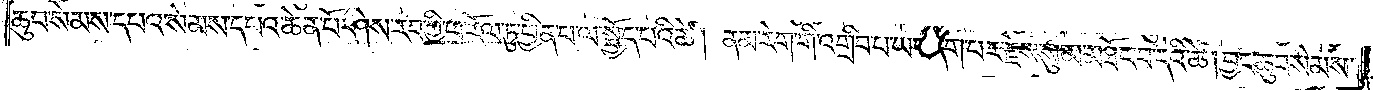ཆུབ་སེམས་དཔའ་སེམས་དཔའ་ཆེན་པོ་ཤེས་རབ་ཀྱི་ཕ་རོལ་ཏུ་ཕྱིན་པ་ལ་སྤྱོད་པའི་ཚེ། ནམ་རེག་གི་འགྲིབ་པ་ཡང་དག་པར་རྗེས་སུ་མ་མཐོང་བ་དེའི་ཚེ། བྱང་ཆུབ་སེམས་
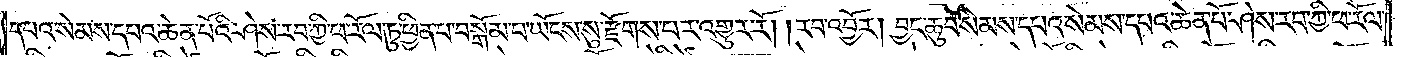དཔའ་སེམས་དཔའ་ཆེན་པོའི་ཤེས་རབ་ཀྱི་ཕ་རོལ་ཏུ་ཕྱིན་པ་བསྒོམ་པ་ཡོངས་སུ་རྫོགས་པར་འགྱུར་རོ། །རབ་འབྱོར། བྱང་ཆུབ་སེམས་དཔའ་སེམས་དཔའ་ཆེན་པོ་ཤེས་རབ་ཀྱི་ཕ་རོལ་
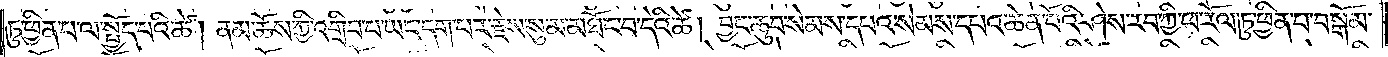ཏུ་ཕྱིན་པ་ལ་སྤྱོད་པའི་ཚེ། ནམ་ཆོས་ཀྱི་འགྲིབ་པ་ཡང་དག་པར་རྗེས་སུ་མ་མཐོང་བ་དེའི་ཚེ། བྱང་ཆུབ་སེམས་དཔའ་སེམས་དཔའ་ཆེན་པོའི་ཤེས་རབ་ཀྱི་ཕ་རོལ་ཏུ་ཕྱིན་པ་བསྒོམ་
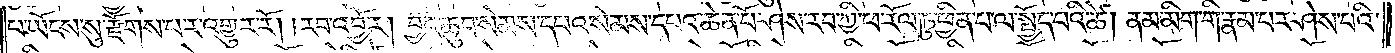པ་ཡོངས་སུ་རྫོགས་པར་འགྱུར་རོ། །རབ་འབྱོར། བྱང་ཆུབ་སེམས་དཔའ་སེམས་དཔའ་ཆེན་པོ་ཤེས་རབ་ཀྱི་ཕ་རོལ་ཏུ་ཕྱིན་པ་ལ་སྤྱོད་པའི་ཚེ། ནམ་མིག་གི་རྣམ་པར་ཤེས་པའི་
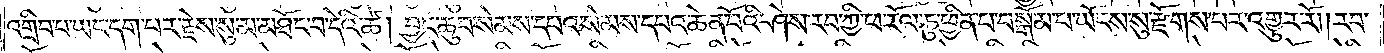འགྲིབ་པ་ཡང་དག་པར་རྗེས་སུ་མ་མཐོང་བ་དེའི་ཚེ། བྱང་ཆུབ་སེམས་དཔའ་སེམས་དཔའ་ཆེན་པོའི་ཤེས་རབ་ཀྱི་ཕ་རོལ་ཏུ་ཕྱིན་པ་བསྒོམ་པ་ཡོངས་སུ་རྫོགས་པར་འགྱུར་རོ། །རབ་
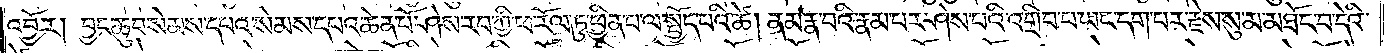འབྱོར། བྱང་ཆུབ་སེམས་དཔའ་སེམས་དཔའ་ཆེན་པོ་ཤེས་རབ་ཀྱི་ཕ་རོལ་ཏུ་ཕྱིན་པ་ལ་སྤྱོད་པའི་ཚེ། ནམ་རྣ་བའི་རྣམ་པར་ཤེས་པའི་འགྲིབ་པ་ཡང་དག་པར་རྗེས་སུ་མ་མཐོང་བ་དེའི་
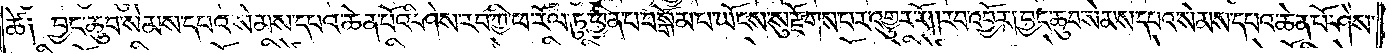ཚེ། བྱང་ཆུབ་སེམས་དཔའ་སེམས་དཔའ་ཆེན་པོའི་ཤེས་རབ་ཀྱི་ཕ་རོལ་ཏུ་ཕྱིན་པ་བསྒོམ་པ་ཡོངས་སུ་རྫོགས་པར་འགྱུར་རོ། །རབ་འབྱོར། བྱང་ཆུབ་སེམས་དཔའ་སེམས་དཔའ་ཆེན་པོ་ཤེས་
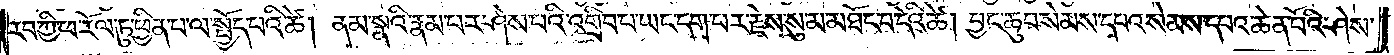རབ་ཀྱི་ཕ་རོལ་ཏུ་ཕྱིན་པ་ལ་སྤྱོད་པའི་ཚེ། ནམ་སྣའི་རྣམ་པར་ཤེས་པའི་འགྲིབ་པ་ཡང་དག་པར་རྗེས་སུ་མ་མཐོང་བ་དེའི་ཚེ། བྱང་ཆུབ་སེམས་དཔའ་སེམས་དཔའ་ཆེན་པོའི་ཤེས་
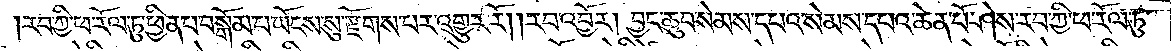རབ་ཀྱི་ཕ་རོལ་ཏུ་ཕྱིན་པ་བསྒོམ་པ་ཡོངས་སུ་རྫོགས་པར་འགྱུར་རོ། །རབ་འབྱོར། བྱང་ཆུབ་སེམས་དཔའ་སེམས་དཔའ་ཆེན་པོ་ཤེས་རབ་ཀྱི་ཕ་རོལ་ཏུ་
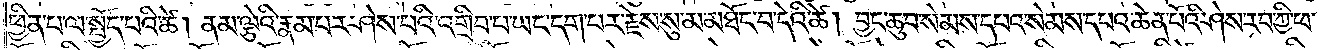ཕྱིན་པ་ལ་སྤྱོད་པའི་ཚེ། ནམ་ལྕེའི་རྣམ་པར་ཤེས་པའི་འགྲིབ་པ་ཡང་དག་པར་རྗེས་སུ་མ་མཐོང་བ་དེའི་ཚེ། བྱང་ཆུབ་སེམས་དཔའ་སེམས་དཔའ་ཆེན་པོའི་ཤེས་རབ་ཀྱི་ཕ་
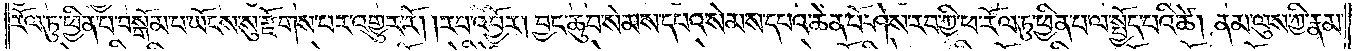རོལ་ཏུ་ཕྱིན་པ་བསྒོམ་པ་ཡོངས་སུ་རྫོགས་པར་འགྱུར་རོ། །རབ་འབྱོར། བྱང་ཆུབ་སེམས་དཔའ་སེམས་དཔའ་ཆེན་པོ་ཤེས་རབ་ཀྱི་ཕ་རོལ་ཏུ་ཕྱིན་པ་ལ་སྤྱོད་པའི་ཚེ། ནམ་ལུས་ཀྱི་རྣམ་
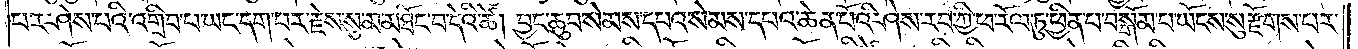པར་ཤེས་པའི་འགྲིབ་པ་ཡང་དག་པར་རྗེས་སུ་མ་མཐོང་བ་དེའི་ཚེ། བྱང་ཆུབ་སེམས་དཔའ་སེམས་དཔའ་ཆེན་པོའི་ཤེས་རབ་ཀྱི་ཕ་རོལ་ཏུ་ཕྱིན་པ་བསྒོམ་པ་ཡོངས་སུ་རྫོགས་པར་
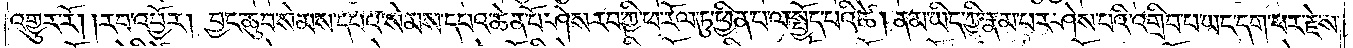འགྱུར་རོ། །རབ་འབྱོར། བྱང་ཆུབ་སེམས་དཔའ་སེམས་དཔའ་ཆེན་པོ་ཤེས་རབ་ཀྱི་ཕ་རོལ་ཏུ་ཕྱིན་པ་ལ་སྤྱོད་པའི་ཚེ། ནམ་ཡིད་ཀྱི་རྣམ་པར་ཤེས་པའི་འགྲིབ་པ་ཡང་དག་པར་རྗེས་
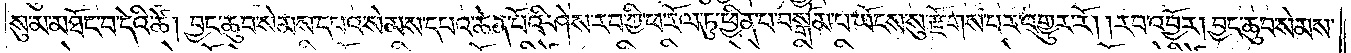སུ་མ་མཐོང་བ་དེའི་ཚེ། བྱང་ཆུབ་སེམས་དཔའ་སེམས་དཔའ་ཆེན་པོའི་ཤེས་རབ་ཀྱི་ཕ་རོལ་ཏུ་ཕྱིན་པ་བསྒོམ་པ་ཡོངས་སུ་རྫོགས་པར་འགྱུར་རོ། །རབ་འབྱོར། བྱང་ཆུབ་སེམས་
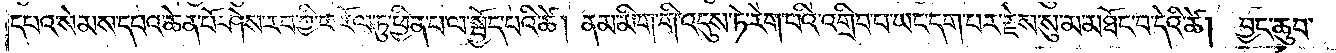དཔའ་སེམས་དཔའ་ཆེན་པོ་ཤེས་རབ་ཀྱི་ཕ་རོལ་ཏུ་ཕྱིན་པ་ལ་སྤྱོད་པའི་ཚེ། ནམ་མིག་གི་འདུས་ཏེ་རེག་པའི་འགྲིབ་པ་ཡང་དག་པར་རྗེས་སུ་མ་མཐོང་བ་དེའི་ཚེ། བྱང་ཆུབ་
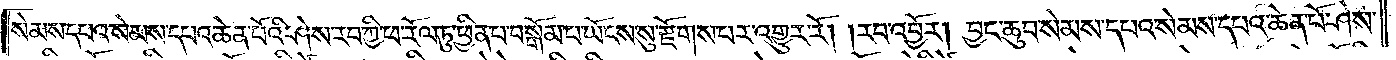སེམས་དཔའ་སེམས་དཔའ་ཆེན་པོའི་ཤེས་རབ་ཀྱི་ཕ་རོལ་ཏུ་ཕྱིན་པ་བསྒོམ་པ་ཡོངས་སུ་རྫོགས་པར་འགྱུར་རོ། །རབ་འབྱོར། བྱང་ཆུབ་སེམས་དཔའ་སེམས་དཔའ་ཆེན་པོ་ཤེས་
